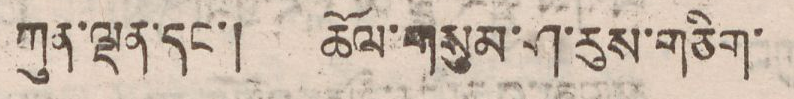ཀུན་ལྡན་དང་། ཆོལ་གསུམ་ཤ་རུས་གཅིག་
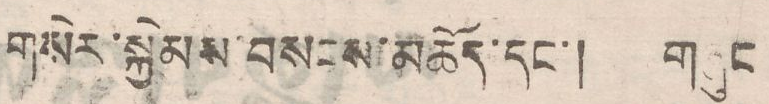གསེར་སྐྱེམས་བསངས་མཆོད་དང་། གཞུང
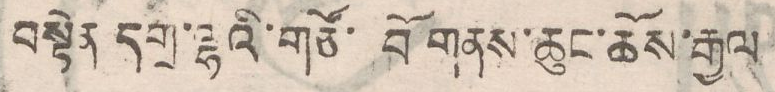བསྟེན དགྲ་ལྷའི་གཙོ་ བོ གནས་ཆུང་ཆོས་རྒྱལ་
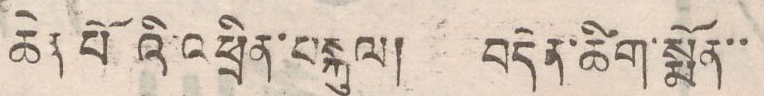ཆེན པོའི་འཕྲིན་བསྐུལ། བདེན་ཚིག་སྨོན་་
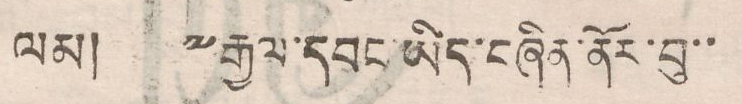ལམ། ༸རྒྱལ་དབང་ཡིད་བཞིན་ནོར་བུ་་
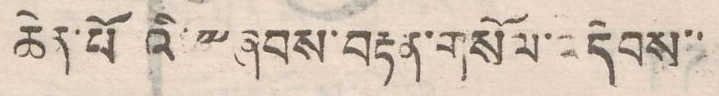ཆེན་པོ་༸ཞབས་བརྟན་གསོལ་འདེབས་་
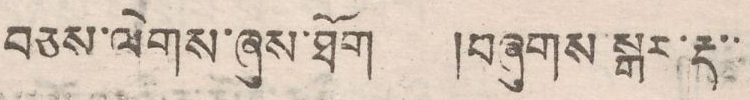བཅས་ལེགས་ཞུས་ཐོག །བཞུགས སྒར་རྡ་་
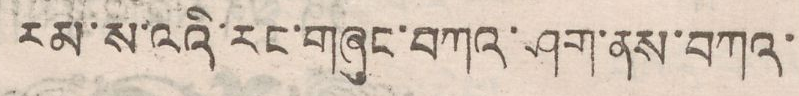རམ་ས་ལའི་རང་གཞུང་བཀའ་ཤག་ནས་བཀའ་
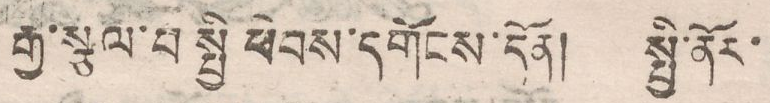རྒྱ་སྩལ་པ་སྤྱི ཕེབས་དགོངས་དོན། སྤྱི་ནོར་
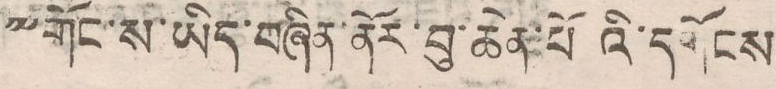༸གོང་ས་ཡིད་བཞིན་ནོར་བུ་ཆེན་པོ འི་དགོངས
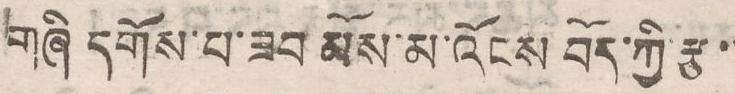གཞི དགོས་པ་ཟབ མོས་མ་འོངས་བོད་ཀྱི་རྩ་་
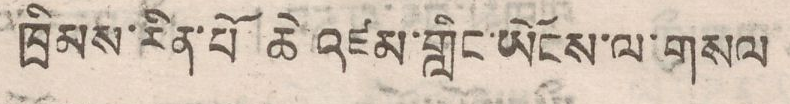ཁྲིམས་རིན་པོ ཆེ་འཛམ་གླིང་ཡོངས་ལ་གསལ
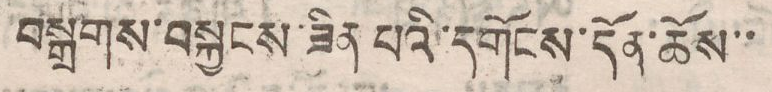བསྒྲགས་བསྐྱངས་ཟིན་པའི་དགོངས་དོན་ཆོས་་
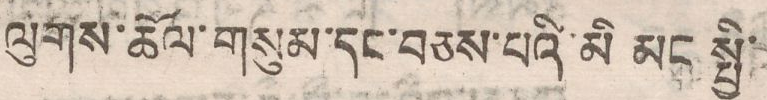ལུགས་ཚོལ་གསུམ་དང་བཅས་པའི་མི མང སྤྱི་
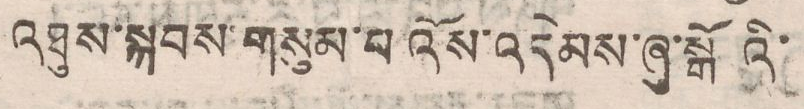འཐུས་སྐབས་གསུམ་པ འོས་འདེབས་ཞུ་སྒོ འི་
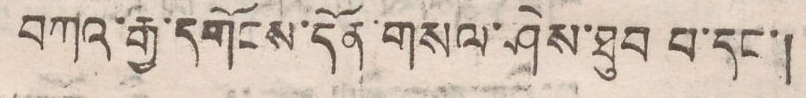བཀའ་རྒྱ་དགོངས་དོན་གསལ་ཤེས་ཐུབ པ་དང་།
